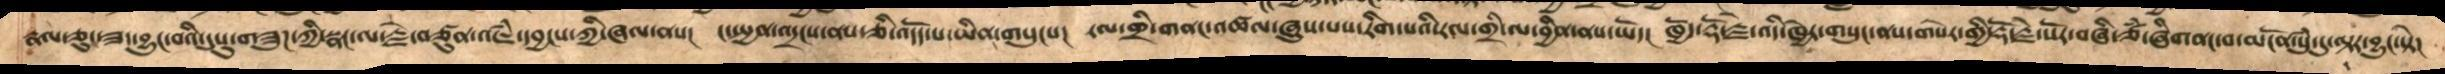རྣལ་ཅུང་ཟད་བྱུང་བའི་དུསུགཟུཌ་ཀྱི་སྣང་ལ་རྗེ་བཙུན་འཇཾ་དབྱངས་ཀྱི་ཞལ་ནས།  ང་སྤྱན་འདྲངས་ནས་ཅི་འདོད་པ་ཡིན་གསུངས།  རལ་གྲི་གནང་འཚལ་ཞུས་པས་རིག་པའི་རལ་གྲི་ལ་བྱིན་ནས་ཡོད།  ཁྱོད་རྡོ་རྗེ་འདི་ཁྱེར་གསུང་ནས་གསེར་གྱི་རྡོ་རྗེ་སོར་བཞི་ཙཾ་ཞིགནང་བ་མངོན་སུཾ་དུ་ལྟར་བྱུང་སྟེ།
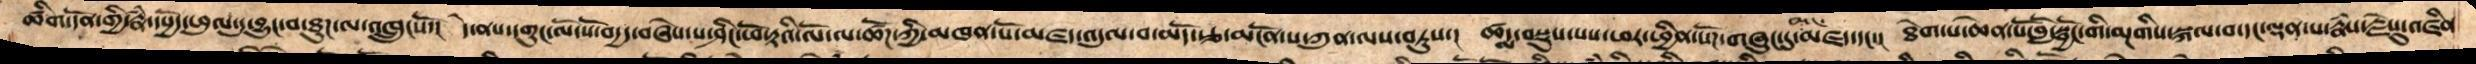ཚིག་དོན་གྱི་རྣཾ་དཔྱོད་ཕུལ་དུ་བྱུང་བ་ཐུཌ་ལ་འཁྲུངསོ།  དེ་ནས་དགུང་ལོ་སོ་བདྱད་བཞེས་པ་ཤིང་ཕོ་རྟའི་ལོ་ལ་ཚོཌ་ཀྱི་མཁན་པོ་མཛད་འདུལ་བ་མདོ་རྩ་མངོན་པ་ཀུན་ལས་བཏུས། ཚད་མ་བསྡུས་པས་ཕར་ཕྱིན་སོཌ་གཞུང་མང་དུ་མཛད་དང་། ཐེག་པ་ཆེན་པོ་བློ་སྦྱོང་གི་མྔགིས་སྐལ་བ་དང་ལྡན་པ་རྣཾས་རྗེསུ་འཛིན་
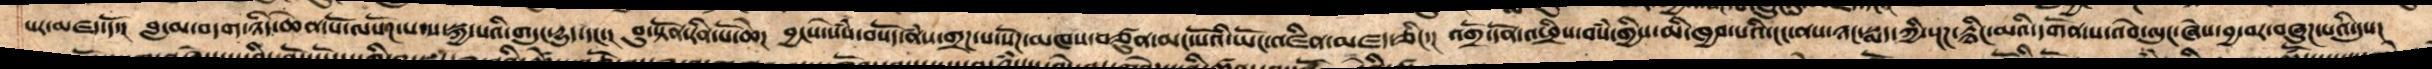པར་མཛད་དོ། བླ་མ་བདག་ཉིད་ཆེན་པོ་ལསོཌ་པ་ས་སྐྱ་པའི་གདུང་དྱུད་དང་། བུ་སྟོན་རིན་པོ་ཆེ། བྱང་སེཾས་བསོད་ནཾས་གྲཌ་པ་སོཌ་མཁས་བཙུན་མང་པོའི་ཡོང་འཛིན་མཛད་ཅིང་། འགྲོ་དོན་འཕྲིས་བསཾ་གྱིས་མི་ཁྱབ་པའི་ངང་ནས་ཉང་སྨད་ཀྱི་སྔཌ་རྙིང་མའི་དགོན་པ་འབེ་ལུང་ཞེས་བྱ་བར་བཞུཌ་པའི་དུས།
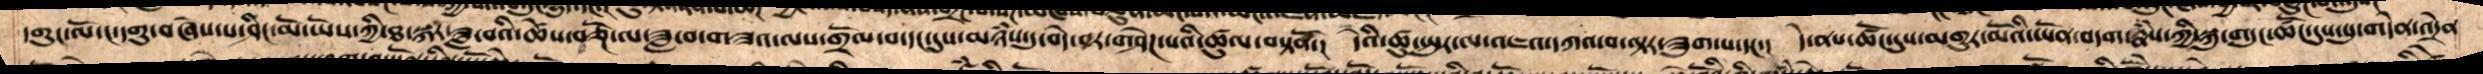དགུང་ལོ་ང་དགུ་བཞེས་པ་ཤིང་མོ་ཡོས་ཀྱི་ཐ་སྐར་ཟླ་བའི་ཚེས་བཅྔོ་ལ་ཟླ་བ་གཟའ་ལས་གྲོལ་བ་དང་དུས་མཉཾས་དུ་བདེ་བར་གཤེཌ་པའི་ཚུལ་བསྟནོ་།  དེའི་ཚུ་སྤུར་ལ་འཇལ་དཀའ་བ་ལྟར་ཟུག་པ་དང་། དེ་ནས་ཚོང་དུས་མགུར་མོའི་ཡོན་བདག་རྣཾས་ཀྱི་སྐུ་གདུང་ཚོང་དུས་སུ་གདེན་འདྲེན་
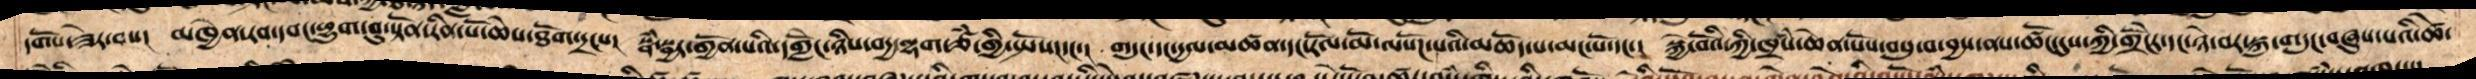དགོས་ཟེར་བས།  མཁྱེན་རབ་དབང་ཕྱུག་བུ་སྟོན་རིན་པོ་ཆེས་ཐོག་དྲངས།  སྣཾ་སྦྱར་གྱོན་པའི་དགླེངོ་ཉིས་བདྱ་ལྷག་ཙཾ་གྱི་སྤོསངདང་།  གདུང་དང་དྱལ་མཚན་དང་རོལ་མོ་ལསོཌ་པའི་མཆོད་པ་མང་པོ་དང་།  སྐྱེ་བོའི་ཀྱི་ཁྲཾས་ཆེན་པོས་བསུ་བ་བྱས་ནས་ཚོང་དུས་ཀྱི་གྲོངེར་དང་ཉེ་བར་སྐུ་གདུང་བཞུས་པའི་ཚེ་
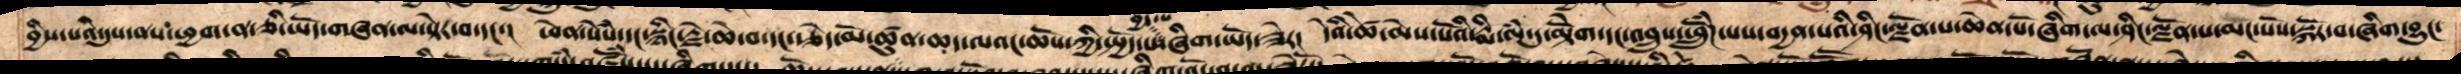བྱིས་པའི་དུས་ནས་ཕྱག་ན་ཅི་ཡོད་གཞན་ལ་སྟེར་བ་དང་།  ཕེན་སེཾས་དང་སྙིང་རྗེ་ཆེ་བ་དང་རྩེད་མོ་ཚུན་ཆད་ལའང་ཆོས་ཀྱི་སྤྱོད་པ་བྱ་བ་ཞིག་ཡོད་ཟེར། དེའི་ཚེ་མེས་པོའི་རྨི་ལཾ་དུ་མྟེོག་དང་འབྲུས་ཕོུུཾཌ་པས་བདྱན་པའི་ཤིང་ལྗོན་པ་ཆེན་པོ་ཞིག་ལ་ཤིང་ལྗོན་པ་མང་པོས་སྐོར་བ་ཞིག་བྱུང་
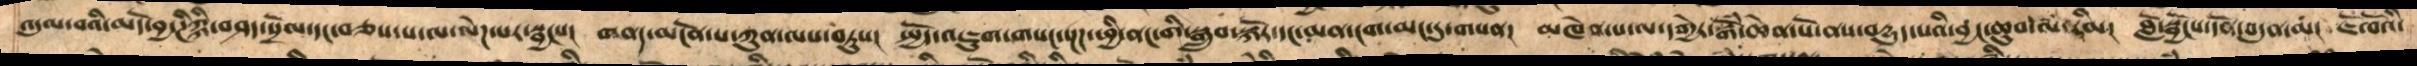འདུལ་བའི་མདོ་བྱ་ཌིཀྐི་བཤད་སྲོལ་དང་བཅས་པ་ལ་ལེཌ་པར་སྦྱངས།  གནད་མངོན་པ་ཀུན་ལས་བཏུས།  སྤྱོད་འཇུག་གསང་སྔཌ་ཕྱི་ནང་གི་སྒྲུབ་སྐོར་དང་མན་ངག་མང་དུ་གསན།   མཁེན་པ་ལ་དགྱེར་སྒོཾ་ཆེན་པོ་ནས་བདྱུད་པའི་བྱང་ཆུབ་ལཾ་རིམ།  བློ་སྦྱོངས་དོན་བདུན་མ།  ཇོ་བོའི་
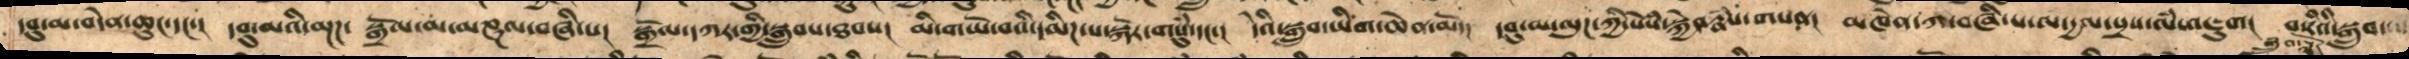དབུ་མ་བདེན་ཆུང་དང་། དབུ་མའི་མྔཌ་ སྒྲོལ་མ་མཎྜལ་བཞི་པ། སྒྲོལ་དཀར་གྱི་སྒྲུབས་ཐབས། མི་གཡོ་བའི་དམིཌ་པ་སྐོར་གསུཾ་དང་།  དེའི་སྒྲུབ་ཡིག་ཆེན་མོ། དབུ་མ་ལུཌ་ཀྱི་སེཾས་སྐྱེད་རྣཾས་གསན། མཁེན་ཀ་བཞི་པ་ལ་དྱལ་སྲས་ལཾ་འཇུག་ བ་རིའི་སྒྲུབ་པ་
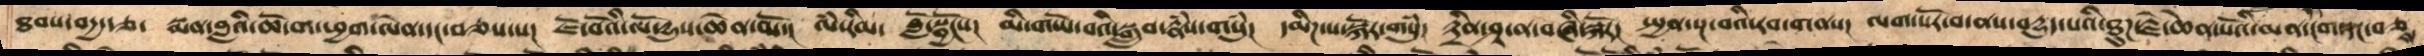ཐབས་བདྱ་རྩ། སྨན་བླའི་ཆོ་ག་ཕྱག་ལེན་དང་བཅས་པ། ཇོ་བོའི་ལོ་དྱུས་ཆེན་མོ། ལཾ་རིམ། བློ་སྦྱོངས། མི་གཡོ་བའི་སྒྲུབ་རྣཾས་གསུཾ། དམིཌ་པ་སྐོར་གསུཾ། རྟྲིན་ཤྭ་ན་བཞི་བསྐོར། སྤྱན་སྔ་བའི་རབ་གནས། ལག་སོར་བ་ནས་བདྱུད་པའི་ཐུཌ་རྗེ་ཆེན་པོའི་མན་ངག་དང་བཅས
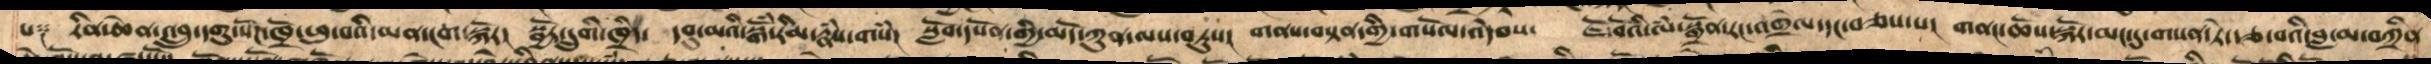པ༑ རིན་ཆེན་འབྲུ་དགུ་སོཌ་ཁྲོ་ཕུ་བའི་མན་ངག་སྐོར། སྦྱོར་དྲུག་གི་ཁྲིད། དབུ་མའི་སྒོཾ་རིམ་རྣཾས་གསཾ། སློབ་དཔོན་གྱི་མདོ་ཀུན་ལས་བཏུས། གནས་བསྟན་གྱི་གསོལ་འདེབས། ཇོ་བོའི་ལཾ་སྒྲོན་རང་འགྲེལ་དང་བཅས་པ། གནང་ཆོས་སྐོར་མང་དུ་གསན་ཏེ་རྩ་བའི་བླ་མ་བཀྲིན་
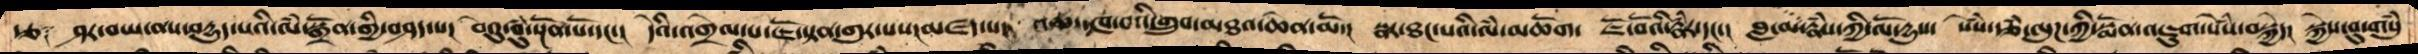རྩ༑ ཤར་བ་པ་ནས་བདྱུད་པའི་ལཾ་སྒྲོན་གྱི་བཤད་པ། བེའུ་བུཾ་སྔོན་པོ་དང་། དེའི་འགྲེལ་པ་ཇོ་སྟན་གུར་པས།མཛད་པ། འཆད་ཁ་བའི་གྲུབ་མཐའ་ཆེན་མོ། སྣར་ཐང་པའི་ལཾ་མཆོག  ཇོ་བོའི་རྣཾར་དང་། བླ་མ་རྣཾས་ཀྱི་ལོ་རྒྱུས་ སེཾས་ཙཾ་ལུཌ་ཀྱི་སྨོན་འཇུག་སེཾས་བསྐྱེད། སྐྱེས་བུ་གསུཾ་
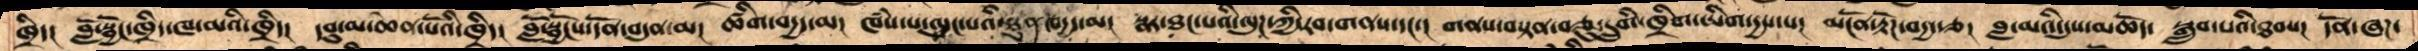ཁྲིད།   བློ་སྦྱོང་ཁྲིད་ཁ་མའི་ཁྲིད།   དབུ་མ་ཆེན་པོའི་ཁྲིད།  བློ་སྦྱོང་དོན་བདུན་མ།   ཚིག་བདྱད་མ།  ཁཾས་པ་ལུང་པའི་ཐུན་བདྱད་མ།  སྣར་ཐང་པའི་ལུཌ་ཀྱི་རབ་གནས་དང་།  གནས་བསྟན་བཅུ་དྲུགི་ཁྲིག་ཡིག་དྱས་པ།  མངོན་རྟོཌ་བདྱ་རྩ།  བླ་མའི་དུས་མཆོད་  སྒྲུབ་པའི་ཐབས།  དོན་ཞཌ་
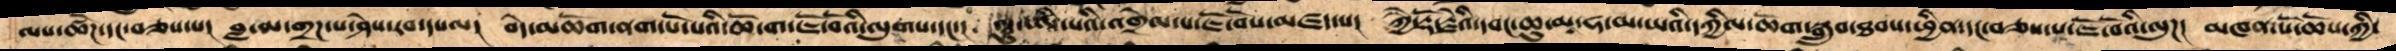ལས་ཚོཌ་དང་བཅས་པ། བླ་མ་གྲཌ་པ་ཤེས་རབ་ལ། བདེ་མཆོག་ནག་པོ་པའི་ཆོ་ག་ཇོ་བོའི་ལུགས་དང་། ལཱུ་ཨི་པའི་འགྲེལ་པ་ཇོ་བོས་མཛད་པ། ཀྱཻ་རྡོ་རྗེའི་དབང་ཆུ་མ་ཧཱ་མ་ཡའི་དཀྱིལ་ཆོག་སྒྲུབ་ཐབས་ཕྱིན་དང་བཅས་པ་ཇོ་བོའི་ལུཌ། མཁན་པོ་ཆོས་ཀྱི་
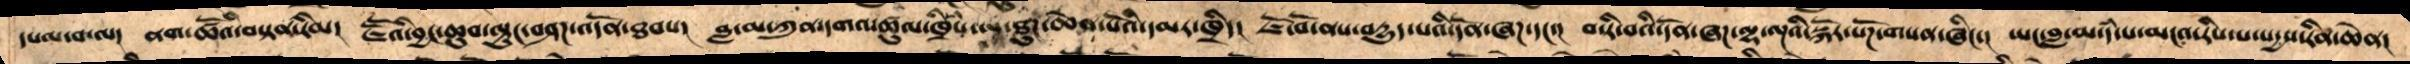དཔལ་བ་ལ།  ནག་ཚོའི་བསྟན་རིམ།  ཇོ་བོའི་བྱང་ཆུབ་ལྟུང་བཤཌ་འདོན་ཐབས།  བླ་མ་ཀུན་དགའ་ཚུལ་ཁྲིཾས་ལ་ཐུཌ་ཆེན་པོའི་དམར་ཁྲིད།  ཇོ་བོ་ནས་བདྱུད་པའི་དོན་ཞཌ་དང་།  བ་རི་བའི་དོན་ཞཌ་ལྷ་ལྔའི་སྐོར་སོཌ་གསན་ཞིང་།  ཡང་བླ་མ་དཾ་པ་མངའ་རིས་པ་སདྱས་རིན་ཆེན།
